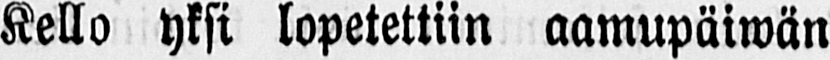Kello yksi lopetettiin aamupäiwän
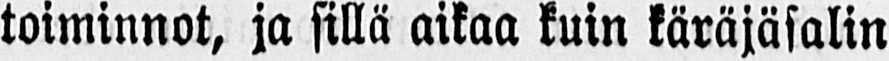toiminnot, ja sillä aikaa kuin käräjäsalin
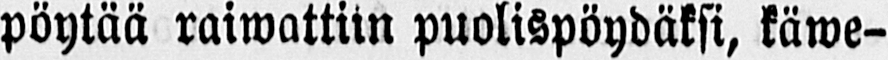pöytää raiwattiin puolispöydäksi, käwe-
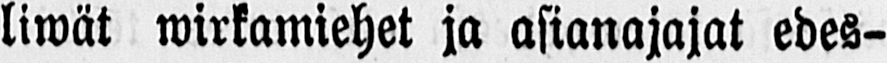liwät wirkamiehet ja asianajajat edes-
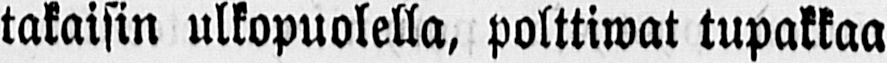takaisin ulkopuolella, polttiwat tupakkaa
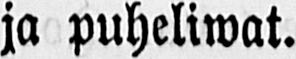ja puheliwat.
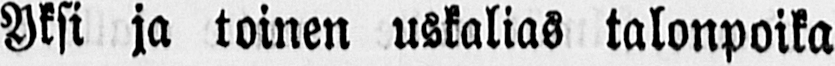Yksi ja toinen uskalias talonpoika
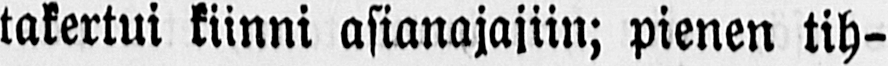takertui kiinni asianajajiin; pienen tih-
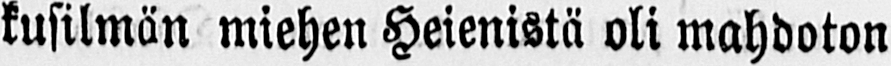kusilmän miehen Heienistä oli mahdoton
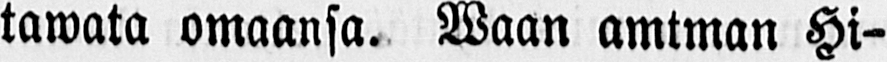tawata omaansa. Waan amtman Hi-
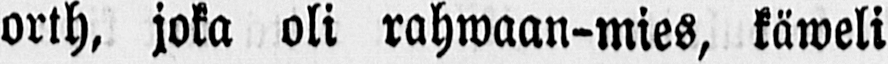orth, joka oli rahwaan-mies, käweli
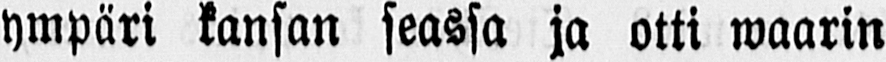ympäri kansan seassa ja otti waarin
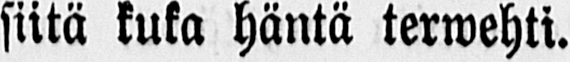siitä kuka häntä terwehti.
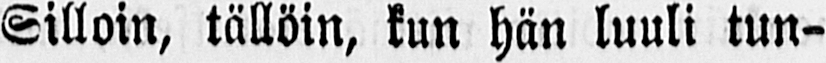Silloin, tällöin, kun hän luuli tun-
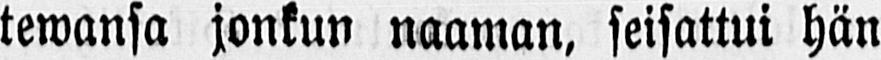tewansa jonkun naaman, seisattui hän
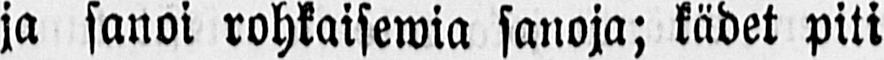ja sanoi rohkaisewia sanoja; kädet piti
